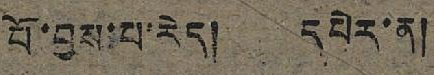པོ་བྱས་པ་རེད། དཔེར་ན།
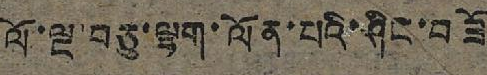ལོ་ལྔ་བཅུ་ལྷག་ལོན་པའི་ཤིང་བཟོ
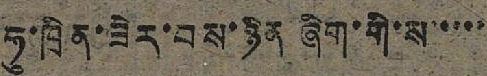ཧུ་ཁྲིན་ཟེར་བས་ཉིན ཞིག་གི་ས་་་་་
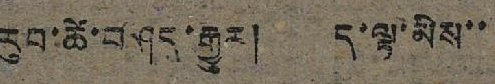རུབ་ཚེ་བཤད་རྒྱུར། ད་ལྟ་མིས་་
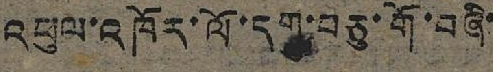འཕུལ་འཁོར་ལོ་དགུ་བཅུ་གོ་བཞི་
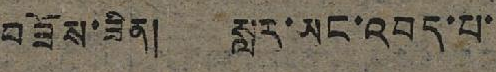བཟོས་ཟིན། སླར་ཡང་འབད་པ་
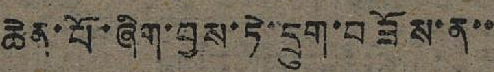ཆེན་པོ་ཞིག་བྱས་ཏེ་དྲུག་བཟོས་ན་་
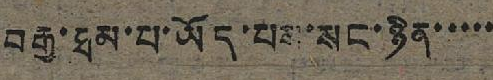བརྒྱ་ཐམ་པ་ཡོད་པས་སང་ཉིན་་་་་
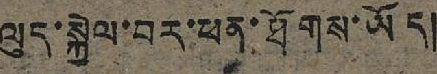ལུད་སྐྱེལ་བར་ཕན་ཐོགས་ཡོད།
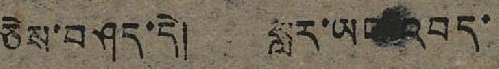ཅེས་བཤད་དེ། སླར་ཡང་འབད་
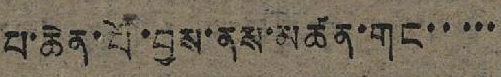པ་ཆེན་པོ་བྱས་ནས་མཚན་གང་་་་་
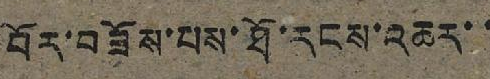བོར་བཟོས་པས་ཐོ་རངས་འཆར་་
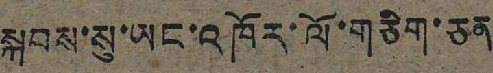སྐབས་སུ་ཡང་འཁོར་ལོ་གཅིག་ཅན
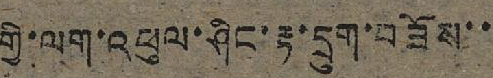གྱི་ལག་འཕུལ་ཤིང་རྟ་དྲུག་བཟོས་་
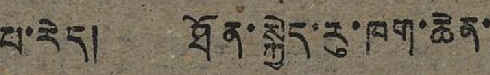པ་རེད། ཐོན་སྐྱེད་རུ་ཁག་ཆེན་
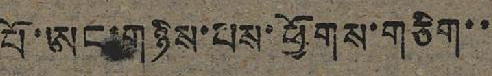པོ་ཨང་གཉིས་པས་ཕྱོགས་གཅིག་་
